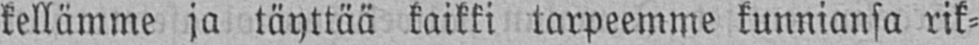kellämme ja täyttää kaikki tarpeemme kunniansa rik-
